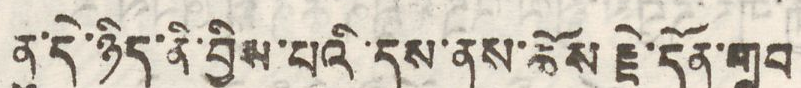ནུ་དེ་ཉིད་ནི་བྱིས་པའི་དུས་ནས་ཆོས རྗེ་དོན་གྲུབ
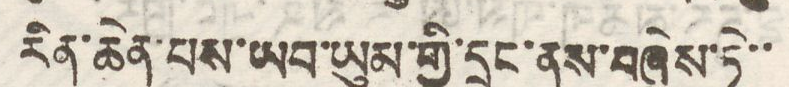རིན་ཆེན་པས་ཡབ་ཡུམ་གྱི་དྲུང་ནས་བཞེས་ཏེ་་
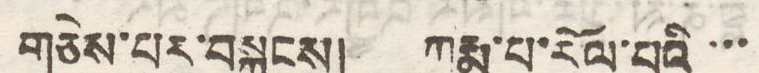གཅེས་པར་བསྐྱངས། ཀརྨ་པ་རོལ་པའི་་་
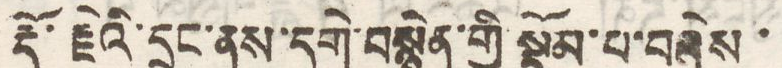རྡོ་རྗེའི་དྲུང་ནས་དགེ་བསྙེན་གྱི་སྡོམ་པ་བཞེས་
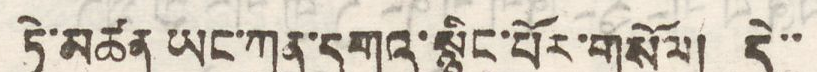ཏེ་མཚན ཡང་ཀུན་དགའ་སྙིང་པོར་གསོལ། དེ་་
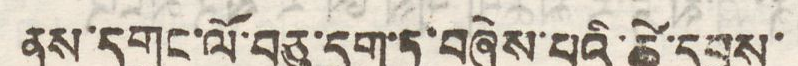ནས་དགུང་ལོ་བཅུ་དྲུག་ཏུ་བཞེས་པའི་ཚེ་དབུས་
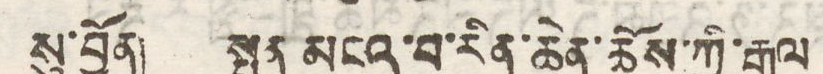སུ་བྱོན། སྤྱན མངའ་པ་རིན་ཆེན་ཆོས་ཀྱི་རྒྱལ
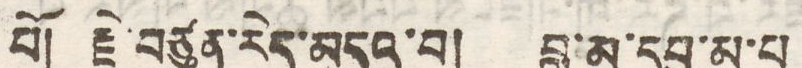པོ། རྗེ་བཙུན་རེད་མདའ་བ། བླ་མ་དབྱ་མ་པ
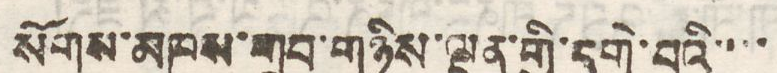སོགས་མཁས་གྲུབ་གཉིས་ལྡན་གྱི་དགེ་བའི་་་་
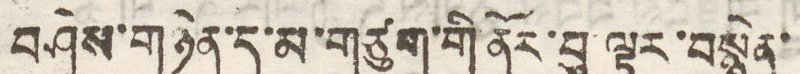བཤེས་གཉེན་དུ་མ་གཙུག་གི་ནོར་བུ་ལྟར་བསྙེན་
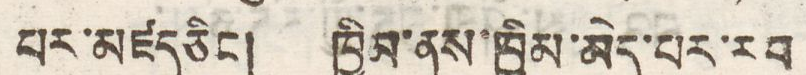པར་མཛད ཅིང། ཁྱིམ་ནས་ཁྱིམ་མེད་པར་རབ
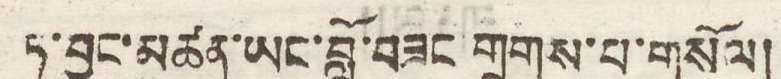ཏུ་བྱུང་མཚན་ཡང་བློ་བཟང་གྲགས་པ་གསོལ།
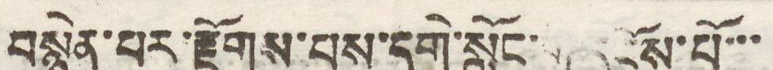བསྙེན་པར་རྫོགས་པས་དགེ་སློང་གི་དངོས་པོ་་་
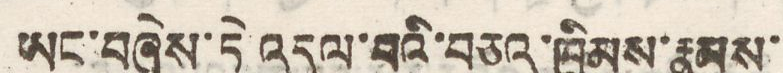ཡང་བཞེས་ཏེ་འདུལ་བའི་བཅའ་ཁྲིམས་རྣམས་
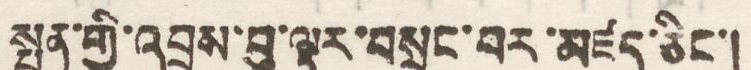སྤྱན་གྱི་འབྲས་བུ་ལྟར་བསྲུང་བར་མཛད་ཅིང་།
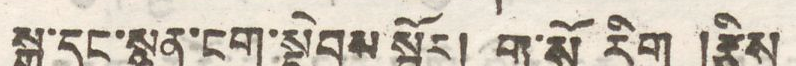སྒྲ་དང་སྙན་ངག་སྡེབས་སྦྱོར། ག་སོ རིག །རྩིས་
